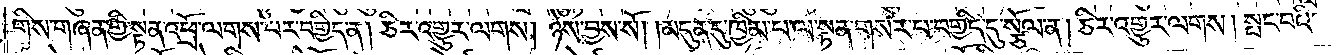གིས་གཞན་གྱི་སྟན་འཕྲོ་ལགས་པར་བགྱིད་ན། ཅིར་འགྱུར་ལགས། ཉེས་བྱས་སོ། །མདུན་དུ་ཁྱིམ་པ་ལ་སྟན་གསར་པ་བགྱིད་དུ་སྩོལ་ན། ཅིར་འགྱུར་ལགས། སྤང་བའི་
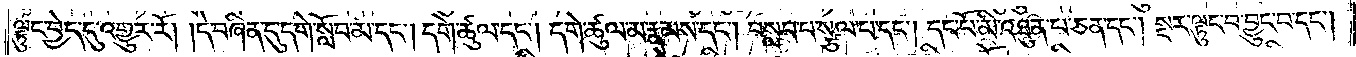ལྟུང་བྱེད་དུ་འགྱུར་རོ། །དེ་བཞིན་དུ་དགེ་སློབ་མ་དང༌། དགེ་ཚུལ་དང༌། དགེ་ཚུལ་མ་རྣམས་དང༌། བསླབ་པ་སྩལ་པ་དང༌། དང་པོ་མི་འཐུན་པ་ཅན་དང༌། སྔར་ལྟུང་བ་བྱུང་བ་དང༌།
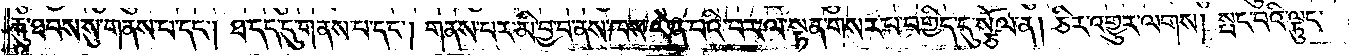རྐུ་ཐབས་སུ་གནས་པ་དང༌། ཐ་དད་དུ་གནས་པ་དང༌། གནས་པར་མི་བྱ་བ་ནས་ཁས་ལེན་པའི་བར་ལ་སྟན་གསར་བ་བགྱིད་དུ་སྩོལ་ན། ཅིར་འགྱུར་ལགས། སྤང་བའི་ལྟུང་
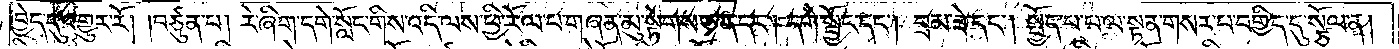བྱེད་དུ་འགྱུར་རོ། །བཙུན་པ། རེ་ཞིག་དགེ་སློང་གིས་འདི་ལས་ཕྱི་རོལ་པ་གཞན་མུ་སྟེགས་ཅན་དང༌། དགེ་སྦྱོང་དང༌། བྲམ་ཟེ་དང༌། སྤྱོད་པ་པ་ལ་སྟན་གསར་པ་བགྱིད་དུ་སྩོལ་ན།
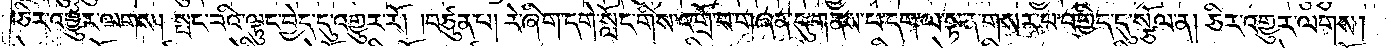ཅིར་འགྱུར་ལགས། སྤང་བའི་ལྟུང་བྱེད་དུ་འགྱུར་རོ། །བཙུན་པ། རེ་ཞིག་དགེ་སློང་གིས་འགྲོ་བ་གཞན་དུ་གནས་པ་དག་ལ་སྟན་གསར་པ་བགྱིད་དུ་སྩོལ་ན། ཅིར་འགྱུར་ལགས།
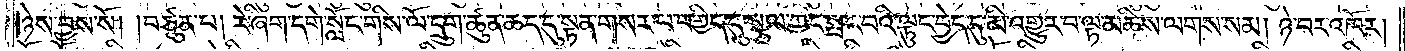ཉེས་བྱས་སོ། །བཙུན་པ། རེ་ཞིག་དགེ་སློང་གའི་ལོ་དྲུག་ཚུན་ཆད་དུ་སྟན་གསར་པ་བགྱིད་དུ་སྩལ་ཀྱང་སྤང་བའི་ལྟུང་བྱེད་དུ་མི་འགྱུར་བ་ལྟ་མཆིས་ལགས་སམ། ཉེ་བར་འཁོར།
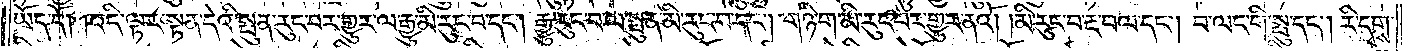ཡོད་དོ། །འདི་ལྟར་སྟན་དེའི་སྤུན་རུང་བར་གྱུར་ལ་རྒྱུ་མི་རུང་བ་དང༌། རྒྱུ་རུང་བ་ལ་སྤུན་མི་རུང་བ་དང༌། གཉི་ག་མི་རུང་བར་གྱུར་ནའོ། །མི་རུང་བ་རྔ་བལ་དང༌། བ་ལང་གི་སྤུ་དང༌། རི་དྭགས་
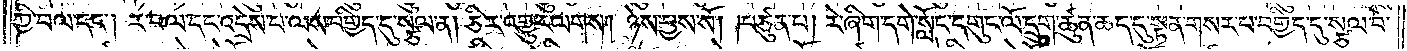ཀྱི་བལ་དང༌། ར་བལ་དང་འདྲེས་པ་ལས་བགྱིད་དུ་སྩལ་ན། ཅིར་འགྱུར་ལགས། ཉེས་བྱས་སོ། །བཙུན་པ། རེ་ཞིག་དགེ་སློང་དགུང་ལོ་དྲུག་ཚུན་ཆད་དུ་སྟན་གསར་པ་བགྱིད་དུ་སྩལ་པ་
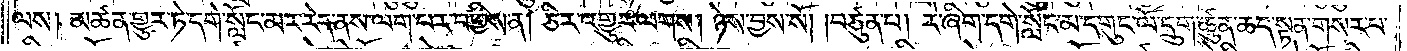ལས། མཚན་གྱུར་ཏེ་དགེ་སློང་མར་རེད་ནས་ལག་པར་བགྱིས་ན། ཅིར་འགྱུར་ལགས། ཉེས་བྱས་སོ། །བཙུན་པ། རེ་ཞིག་དགེ་སློང་མ་དགུང་ལོ་དྲུག་ཚུན་ཆད་སྟན་གསར་པ་
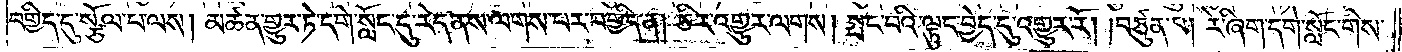བགྱིད་དུ་སྩོལ་པ་ལས། མཚན་གྱུར་ཏེ་དགེ་སློང་དུ་རེད་ནས་ལགས་པར་བགྱིད་ན། ཅིར་འགྱུར་ལགས། སྤང་བའི་ལྟུང་བྱེད་དུ་འགྱུར་རོ། །བཙུན་པ། རེ་ཞིག་དགེ་སློང་གིས་
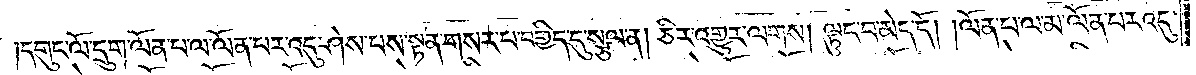།དགུང་ལོ་དྲུག་ལོན་པ་ལ་ལོན་པར་འདུ་ཤེས་པས་སྟན་གསར་པ་བགྱིད་དུ་སྩལ་ན། ཅིར་འགྱུར་ལགས། ལྟུང་བ་མེད་དོ། །ལོན་པ་ལ་མ་ལོན་པར་འདུ་
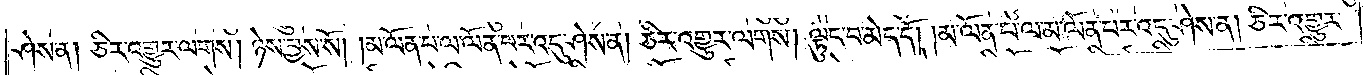ཤེས་ན། ཅིར་འགྱུར་ལགས། ཉེས་བྱས་སོ། །མ་ལོན་པ་ལ་ལོན་པར་འདུ་ཤེས་ན། ཅིར་འགྱུར་ལགས། ལྟུང་བ་མེད་དོ། །མ་ལོན་པ་ལ་མ་ལོན་པར་འདུ་ཤེས་ན། ཅིར་འགྱུར་
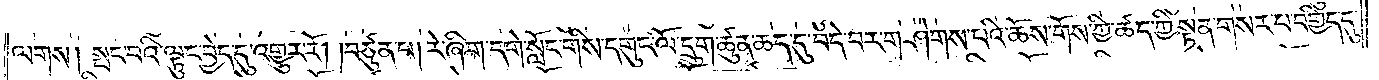ལགས། སྤང་བའི་ལྟུང་བྱེད་དུ་འགྱུར་རོ། །བཙུན་པ། རེ་ཞིག་དགེ་སློང་གིས་དགུང་ལོ་དྲུག་ཚུན་ཆད་དུ་བདེ་བར་གཤེགས་པའི་ཆོས་གོས་ཀྱི་ཚད་ཀྱི་སྟན་གསར་པ་བགྱིད་དུ་
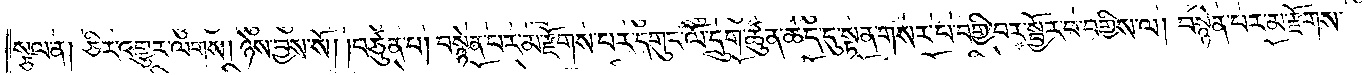སྩལ་ན། ཅིར་འགྱུར་ལགས། ཉེས་བྱས་སོ། །བཙུན་པ། བསྙེན་པར་མ་རྫོགས་པར་དགུང་ལོ་དྲུག་ཚུན་ཆད་དུ་སྟན་གསར་པ་བགྱི་བར་སྦྱོར་བ་བགྱིས་ལ། བསྙེན་པར་མ་རྫོགས་
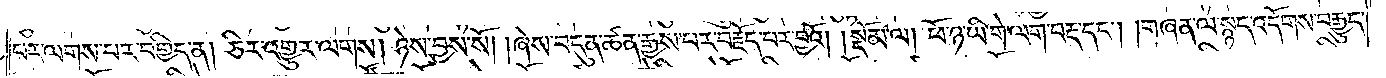པར་ལགས་པར་བགྱིད་ན། ཅིར་འགྱུར་ལགས། ཉེས་བྱས་སོ། །ཞེས་བདུན་ཚན་རྒྱས་པར་བརྗོད་པར་བྱའོ། །སྡོམ་ལ། ཕོ་ཉ་ཡི་གེ་ལག་བརྡ་དང༌། །གཞན་ལ་སྙད་འདོགས་བརྒྱུད་
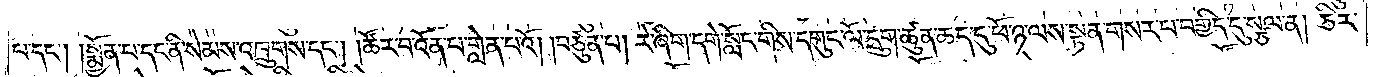པ་དང༌། །སྨྱོན་པ་དང་ནི་སེམས་འཁྲུགས་དང༌། །ཚོར་བ་འོན་པ་གླེན་པའོ། །བཙུན་པ། རེ་ཞིག་དགེ་སློང་གིས་དགུང་ལོ་དྲུག་ཚུན་ཆད་དུ་ཕོ་ཉ་ལས་སྟན་གསར་པ་བགྱིད་དུ་སྩལ་ན། ཅིར་
